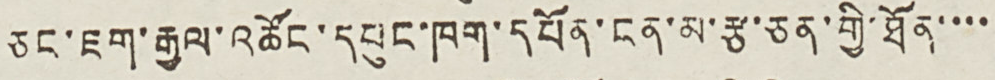ཅང་ཇག་རྒྱལ་འཚོང་དཔུང་ཁག་དཔོན་ངན་མ་རྩ་ཅན་གྱི་ཐོན་་་་
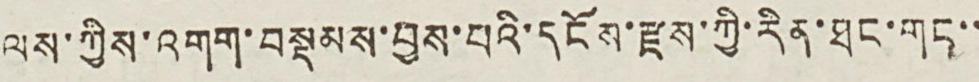ལས་ཀྱིས་འགག་བསྡམས་བྱས་པའི་དངོས་རྫས་ཀྱི་རིན་ཐང་གང་་
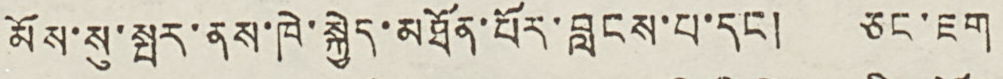མོས་སུ་སྤར་ནས་ཁེ་སྐྱེད་མཐོན་པོར་བླངས་པ་དང ། ཅང་ཇག
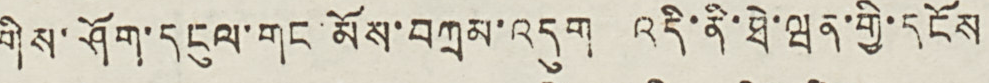གིས་ཤོག་དངུལ་གང་མོས་བཀྲམ་འདུག འདི་ནི་ཐེ་ཝན་གྱི་དངོས
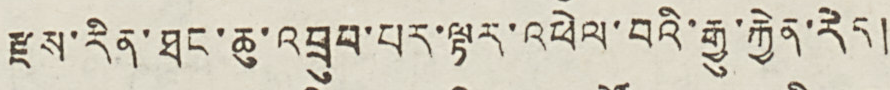རྫས་རིན་ཐང་ཆུ་འབྲུབ་པར་ལྟར་འཕེལ་བའི་རྒྱུ་རྐྱེན་རེད།
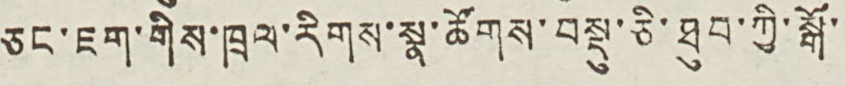ཅང་ཇག་གིས་ཁྲལ་རིགས་སྣ་ཚོགས་བསྡུ་ཅི་ཐུབ་ཀྱི་སྒོ་
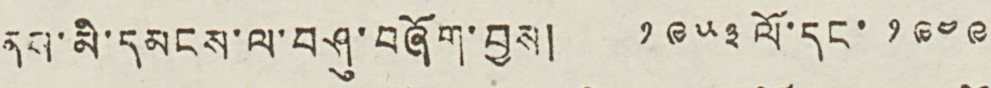ནས་མི་དམངས་ལ་བཤུ་བཞོག་བྱས། ༡༩༥༣ ལོ་དང་ ༡༩༤༩
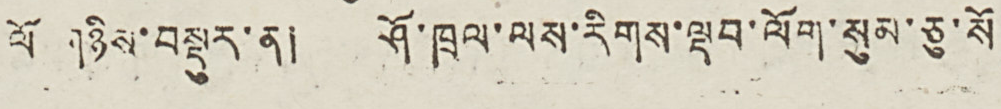ལོ གཉིས་བསྡུར་ན། ཤོ་ཁྲལ་ལས་རིགས་ལྡབ་ལོག་སུམ་ཅུ་སོ
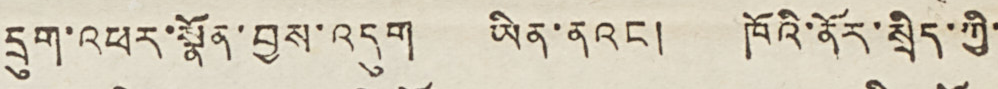དྲུག་འཕར་སྣོན་བྱས་འདུག ཡིན་ནའང། ཁོའི་ནོར་སྲིད་ཀྱི་
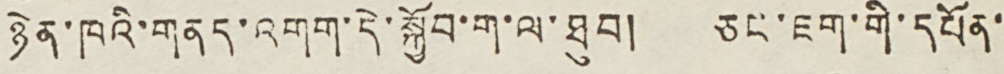ཉེན་ཁའི་གནད་འགག་དེ་སྐྱོབ་ག་ལ་ཐུབ། ཅང་ཇག་གི་དཔོན་
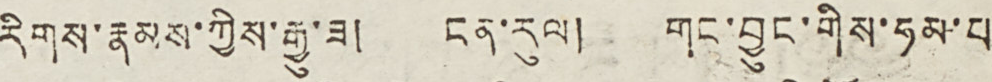རིགས་རྣམས་ཀྱིས་རྒྱུ་ཟ། ངན་རུལ། གང་བྱུང་གིས་ཧམ་པ
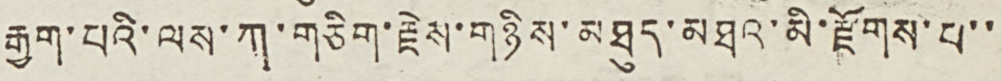རྒྱག་པའི་ལས་ཀ་གཅིག་རྗེས་གཉིས་མཐུད་མཐའ་མི་རྫོགས་པ་་
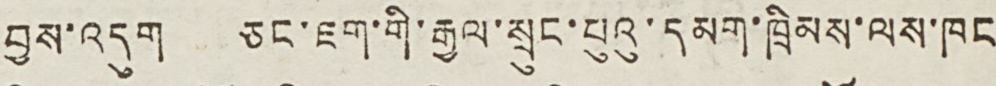བྱས་འདུག ཅང་ཇག་གི་རྒྱལ་སྲུང་པུའུ་དམག་ཁྲིམས་ལས་ཁང
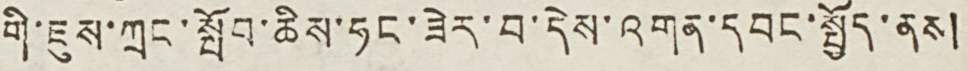གི་ཇུས་ཀྲང་སྤོབ་ཆིས་ཧང་ཟེར་བ་དེས་འགན་དབང་སྤྱོད་ནས།
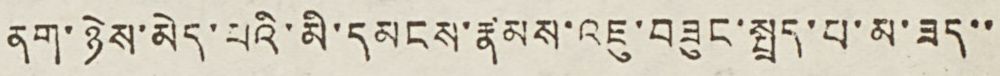ནག་ཉེས་མེད་པའི་མི་དམངས་རྣམས་འཇུ་བཟུང་སྤྲད་པ་མ་ཟད་་
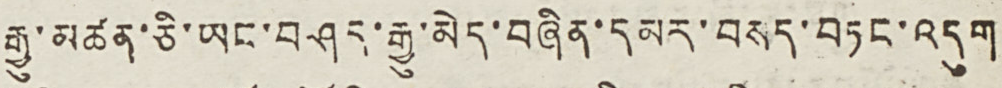རྒྱུ་མཚན་ཅི་ཡང་བཤད་རྒྱུ་མེད་བཞིན་དམར་བསད་བཏང་འདུག
